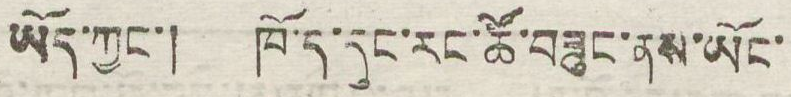ཡོད་ཀྱང་། ཁོ་ད་དུང་རང་ཚོ་བཟུང་ནས་ཡོང་
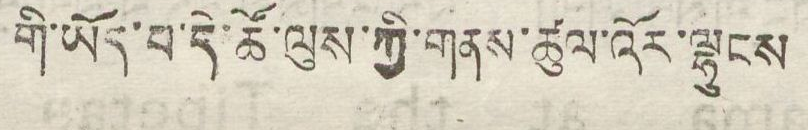གི་ཡོད་པ་དེ་ཚོ་ལུས་ཀྱི་གནས་ཚུལ་འོར་ལྷུངས
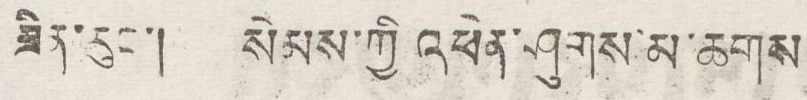ཟིན་རུང་། སེམས་ཀྱི འཕེན་ཤུགས་མ་ཆགས
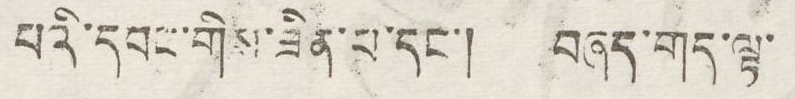པའི་དབང་གིས་ཟིན་པ་དང་། བཞད་གད་ལྟ་
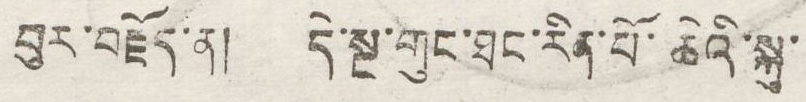བུར་བརྗོད་ན། དེ་སྔ་གུང་ཐང་རིན་པོ་ཆེའི་སྐུ་
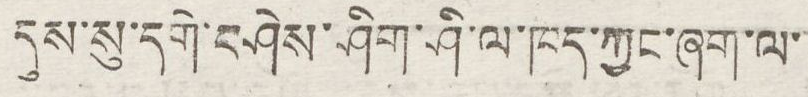དུས་སུ་དགེ་བཤེས་ཤིག་ཤི་ལ་ཁད་ཀྱང་ཞག་ལ་
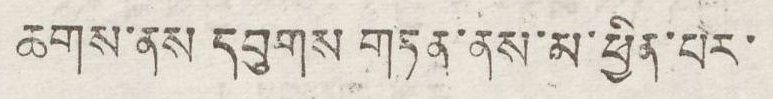ཆགས་ནས དབུགས གཏན་ནས་མ་ཕྱིན་པེར་
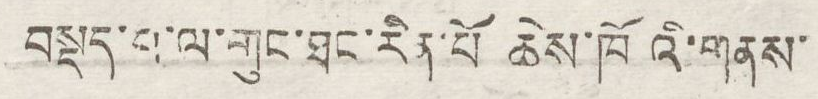བསྡད་པ་ལ་གུང་ཐང་རིན་པོ ཆེས་ཁོའི་གནས་
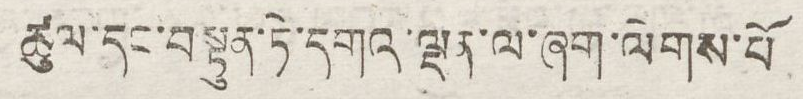ཚུལ་དང་བསྟུན་ཏེ་དགའ་ལྡན་ལ་ཞག་ལེགས་པོ
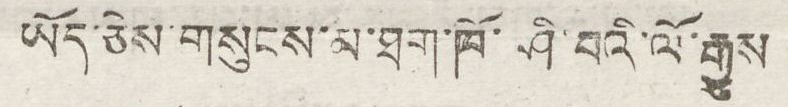ཡོད་ཅེས་གསུངས་མ་ཐག་ཁོ་ཤི་བའི་ལོ་རྒྱུས
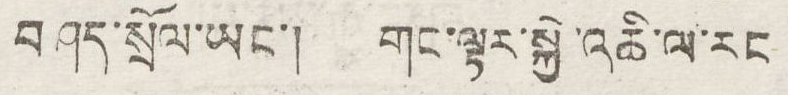བཤད་སྲོལ་ཡང་། གང་ལྟར་སྐྱེ་འཆི་ལ་རང
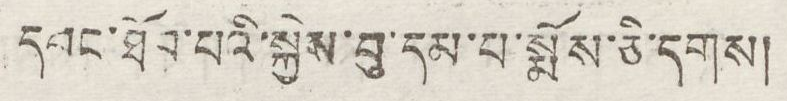དབང་ཐོབ་པའི་སྐྱེས་བུ་དམ་པ་སྨོས་ཅི་དགུས།།
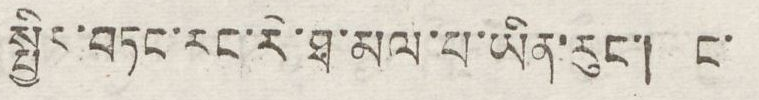སྤྱིར་བཏང་རང་རེ་ཐ་མལ་པ་ཡིན་རུང་། ང་
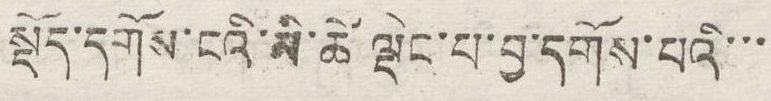སྡོད་དགོས་ངའི་མི་ཚེ ལྡེང་པ་བྱ་དགོས་པའི་་་
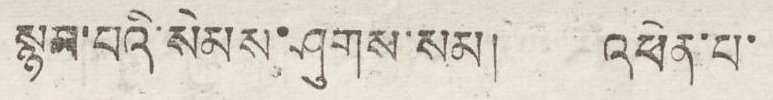སྙམ་པའི་སེམས་ཤུགས་སམ། འཕེན་པ་
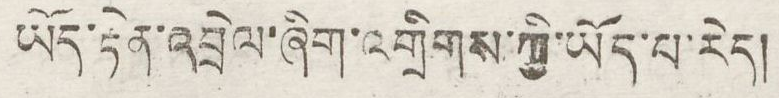ཡོད་རྟེན་འབྲེལ་ཞིག་འགྲིགས་ཀྱི་ཡོད་པ་རེད།
